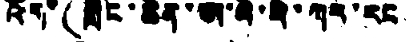འོག་(གླིང་ཆེན་ཨ་མེ་རི་ཀར་རང
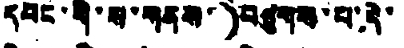དབང་གི་ས་གནས་)བཛུགས་པ་དེ་
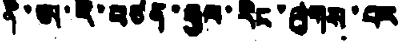ནི་ཨ་རི་བཙན་རྒྱལ་རིང་ལུགས་པར
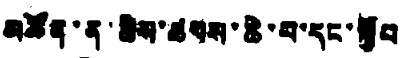མཚོན་ན་ཆེས་ཚབས་ཆེ་བ་དང་སྐྱོབ
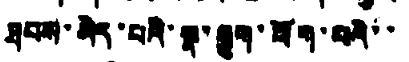ཐབས་མེད་པའི་སྣ་རྒྱུག་ཕོག་པའི་་
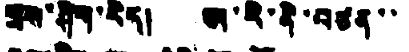གྲས་ཤིག་རེད། ཨ་རི་ནི་བཙན་་
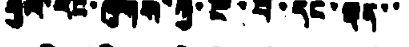རྒྱལ་རིང་ལུགས་ཀྱི་ངོ་བོ་དང་ལྡན་་
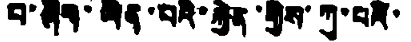པ་ཞིག་ཡིན་པའི་རྐྱེན་གྱིས་ཀུ་པའི་
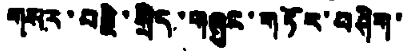གསར་བརྗེ་སྲིད་གཞུང་གཏོར་བཤིག་
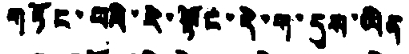གཏོང་བའི་རེ་སྟོང་དེ་ག་དུས་ཡིན
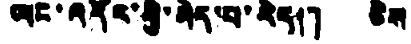ཡང་འདོར་གྱི་མེད་པ་རེད།」 ཅེས
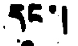དང་།
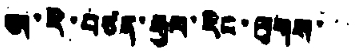ཨ་རི་བཙན་རྒྱལ་རིང་ལུགས་་་
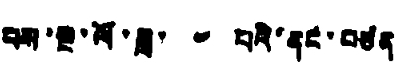པས་སྔ་ལོ་ཟླ་ ༤ པའི་ནང་བཙན
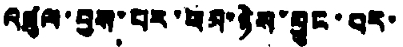འཛུལ་བྱས་པར་ཕམ་ཉེས་བྱུང་བར་
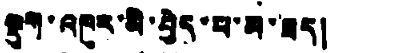ལྡུག་འཁུར་མི་བྱེད་པ་མ་ཟད།
